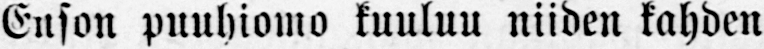Enson puuhiomo kuuluu niiden kahden
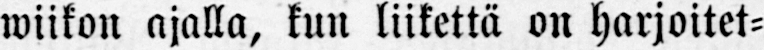wiikon ajalla, kun liikettä on harjoitet-
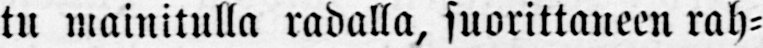tu mainitulla radalla, suorittaneen rah-
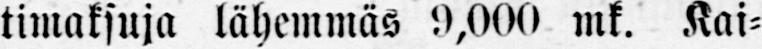timaksuja lähemmäs 9,000 mk. Kai-
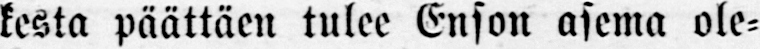kesta päättäen tulee Enson asema ole-
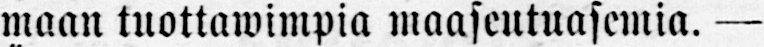maan tuottawimpia maaseutuasemia. —
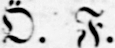Ö. F.
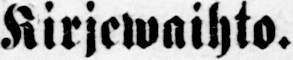Kirjewaihto.
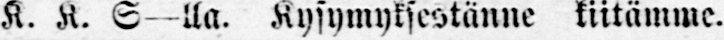K. K. S- lla. Kysymyksestänne kiitämme.
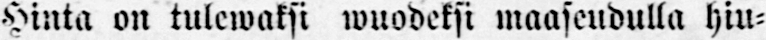Hinta on tulewaksi wuodeksi maaseudulla hiu-
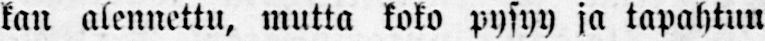kan alennettu, mutta koko pysyy ja tapahtuu
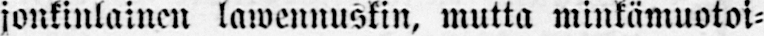jonkinlainen lawennuskin, mutta minkämuotoi-
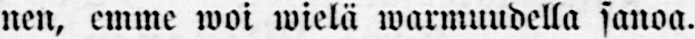nen, emme woi wielä warmuudella sanoa.
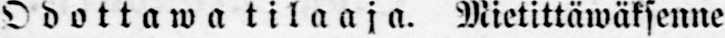Odottawa tilaaja. Mietittäwäksenne
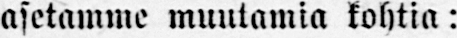asetamme muutamia kohtia:
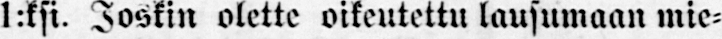1:ksi. Joskin olette oikeutettu lausumaan mie-
